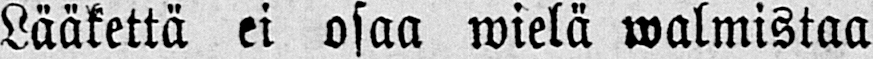Lääkettä ei osaa wielä walmistaa
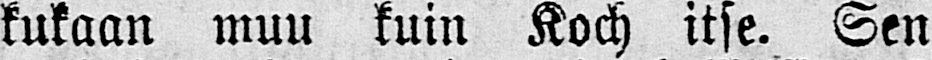kukaan muu kuin Koch itse. Sen
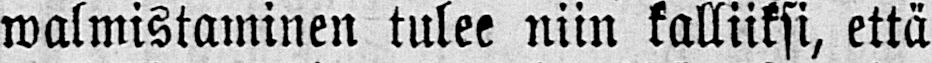walmistaminen tulee niin kalliiksi, että
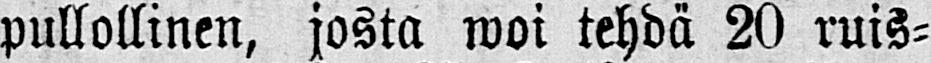pullollinen, josta woi tehdä 20 ruis-
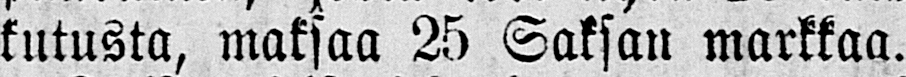kutusta, maksaa 25 Saksan markkaa.
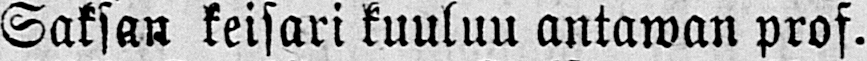Saksan keisari kuuluu antawan prof.
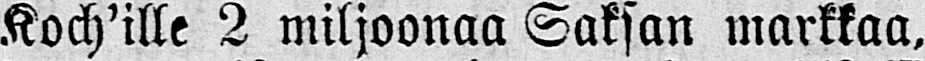Koch'ille 2 miljoonaa Saksan markkaa,
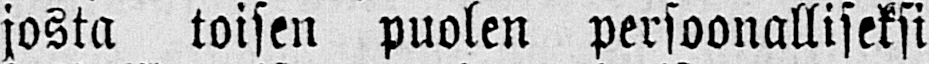josta toisen puolen persoonalliseksi
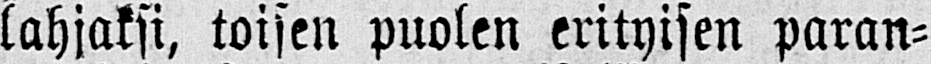lahjaksi, toisen puolen erityisen paran-
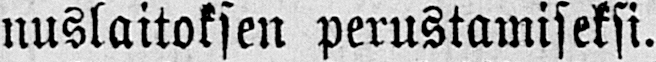nuslaitoksen perustamiseksi.
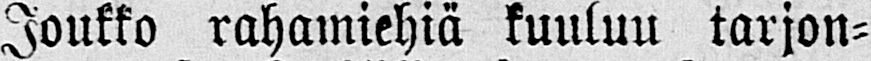Joukko rahamiehiä kuuluu tarjon-
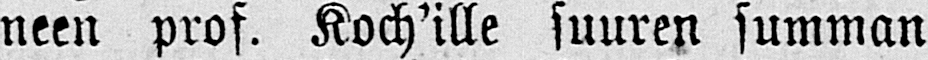neen prof. Koch'ille suuren summan
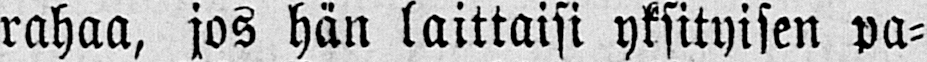rahaa, jos hän laittaisi yksityisen pa-
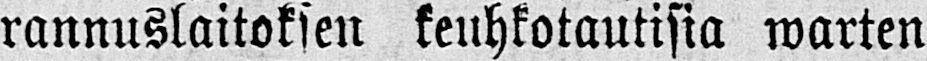rannuslaitoksen keuhkotautisia warten
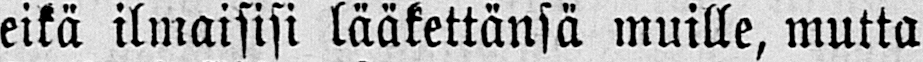eikä ilmaisisi lääkettänsä muille, mutta
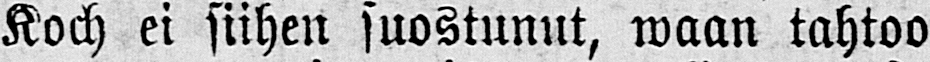Koch ei siihen suostunut, waan tahtoo
